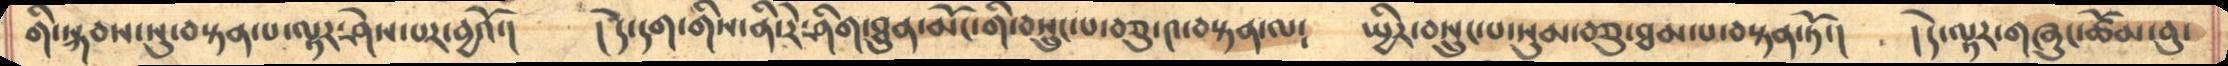གི་སྐབས་སུ་བསྟན་པ་ལྟར་ཤེས་པར་བྱའོ་།     །དེ་དག་གིས་ནི་རེ་ཤིག་ཐུན་མོང་གི་བསྲུང་པ་བཅུ་༤་བསྟན་ལ༴     སྤྱིར་བསྲུང་པ་སུམ་བཅུ་ཐམ་པ་བསྟན་ཏོ་།     །དེ་ལྟར་གཞུང་ཚོམ་བུ་
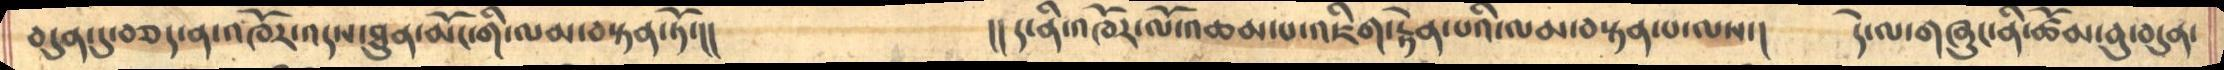བདུན་དུ་བཅད་ན་འཁོར་འདས་ཐུན་མོང་གི་ལམ་བསྟན་ཏོ་།།              །།ད་ནི་འཁོར་ལོ་འཆམ་པ་འཇིག་རྟེན་པའི་ལམ་བསྟན་པ་ལས་།   དེ་ལ་གཞུང་ནི་ཚོམ་བུ་བདུན་
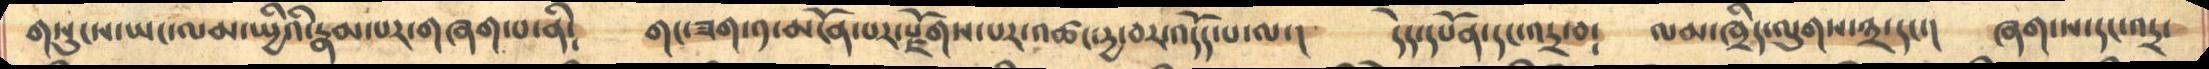གསུངས་ཡང་ལམ་སྤྱིའི་རྣམ་པར་གཞག་པ་ནི༴     གང་ཟག་༡་མངོན་པར་རྫོགས་པར་འཚང་དྱ་བར་འདོད་པ་ལ་།   དེད་དཔོན་དང་འདྲ་བ༴   ལམ་ཁྲིད་ལུགས་༣་དང་།   ཞག་ས་དང་འདྲ་
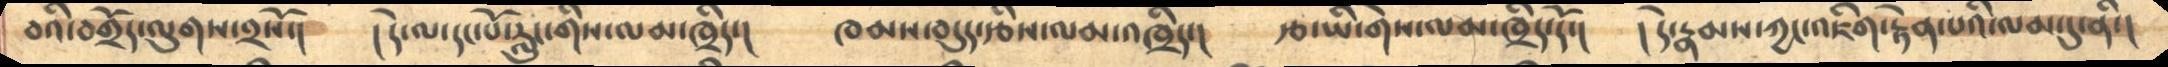བའི་བགྲོད་ལུགས་༢སོ་།    །དེ་ལ་དང་པོ་རླུང་གིས་ལམ་ཁྲིད་།     ཁམས་བདུད་རྩིས་ལམ་འཁྲིད་།     རྩ་ཡི་གེས་ལམ་ཁྲིད་དོ་།   །དེ་རྣམས་ཀྱང་འཇིག་རྟེན་པའི་ལམ་དུ་ནི་།
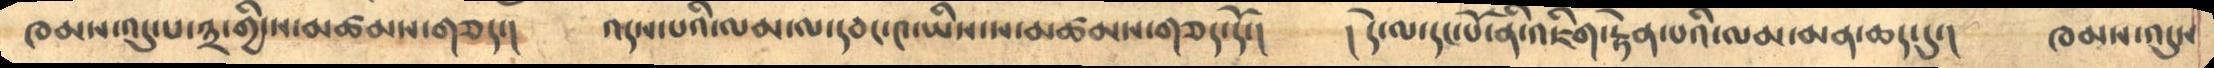ཁམས་འདུ་པ་༣་གྱི་ས་མཚམས་གཅད་།     འདས་པའི་ལམ་ལ་དབང་༤་ཡིས་ས་མཚམས་གཅད་དོ་།    །དེ་ལ་དང་པོ་ནི་འཇིག་རྟེན་པའི་ལམ་མན་ཆད་དུ་།   ཁམས་འདུས
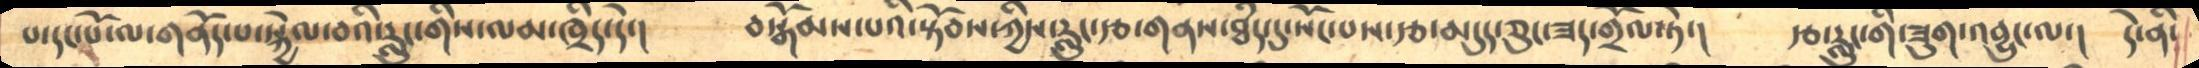པ་དང་པོ་ལ་གནོད་པ་སྐྱེལ་བའི་རླུང་གིས་ལམ་ཁྲིད་དེ་།    བསྒོམས་པའི་སྟོབས་ཀྱིས་རླུང་རྩ་གནས་ཐཾད་དུ་སོང་པས་རྩ་མདུད་ཅུང་ཟད་གྲོལ་ཏེ་།       རྩ་རླུང་གི་ཟུག་འབྱུང་ལ་།   དེ་ནི་
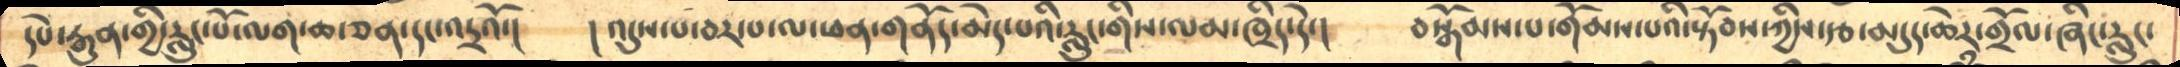དཔེ་རྒུན་གྱི་རླུང་པོ་ལག་ཆ་ཅན་དང་འདྲའོ་།    །འདུས་པ་བར་པ་ལ་ཕན་གནོད་མེད་པའི་རླུང་གིས་ལམ་ཁྲིད་དེ་།   བསྒོམས་པ་གོམས་པའི་སྟོབས་ཀྱིས་རྩ་མདུད་ཆེར་གྲོལ་ཞིང་རླུང་
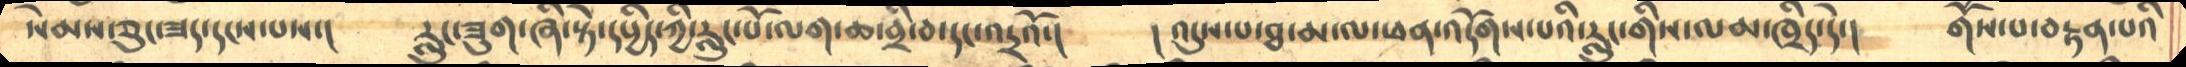སེམས་ཅུང་ཟད་དངས་པས་།     རླུང་ཟུག་ཞི་སྟེ་དཔྱིད་ཀྱི་རླུང་པོ་ལག་ཆ་བྲི་བ་དང་འདྲའོ་།    ། འདུས་པ་ཐ་མ་ལ་ཕན་འདོགས་པའི་རླུང་གིས་ལམ་ཁྲིད་དེ་།   གོས་པ་བརྟན་པའི
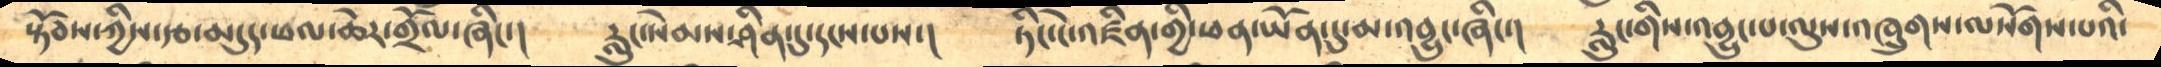སྟོབས་ཀྱིས་རྩ་མདུད་ཕལ་ཆེར་གྲོལ་ཞིང་།     རླུང་སེམས་ཤིན་དུ་དངས་པས་།    ཏིང་ངེ་འཛིན་གྱི་ཕན་ཡོན་དུ་མ་འབྱུང་ཞིང་།   རླུང་གིས་འབྱུང་པ་ལུས་འཁྲུགས་ལསོགས་པའི་
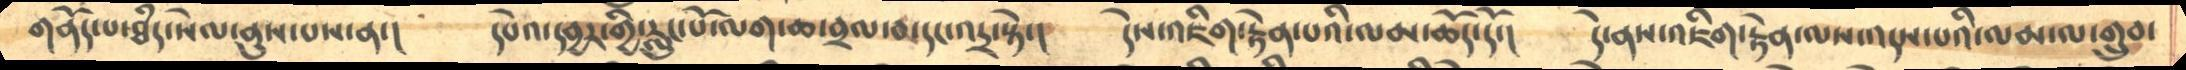གནོད་པ་ཐཾད་སེལ་ནུས་པས་ན་།    དཔེའ་དབྱར་གྱི་རླུང་པོ་ལག་ཆ་བྲལ་བ་དང་འདྲ་སྟེ་།     དེས་འཇིག་རྟེན་པའི་ལམ་ཆོད་དོ་།    དེ་ནས་འཇིག་རྟེན་ལས་འདས་པའི་ལམ་ལ་གྲུབ་
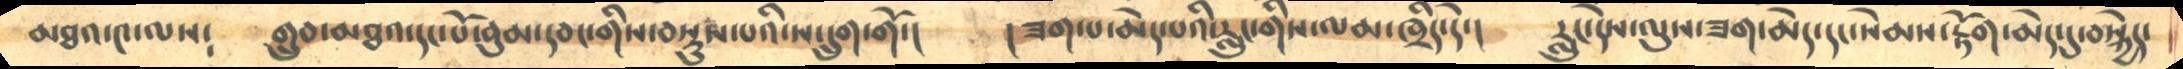མཐའ་༤་ལས༴    གྲུབ་མཐའ་དང་པོ་བུམ་དབང་གིས་བསྡུས་པའི་ས་དྲུག་གོ་།    །ཟག་པ་མེད་པའི་རླུང་གིས་ལམ་ཁྲིད་དེ་།     རླུང་དེས་ལུས་ཟག་མེད་དང་སེམས་རྟོག་མེད་དུ་བསྐྱེད་
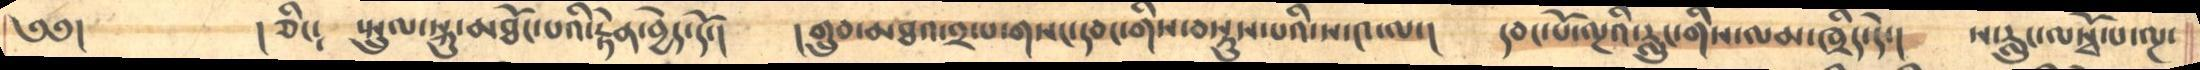༄༅།          །ཅིང༴    སྤྲུལ་སྐུ་མཐོང་པའི་རྟེན་བྱེད་དོ་།      །གྲུབ་མཐའ་༢་པ་གསང་དབང་གིས་བསྡུས་པའི་ས་༤་ལ་།     དབང་པོ་ལྔའི་རླུང་གིས་ལམ་ཁྲིད་དེ་།    ས་རླུང་ལསྭོ་པ་ལྔ་
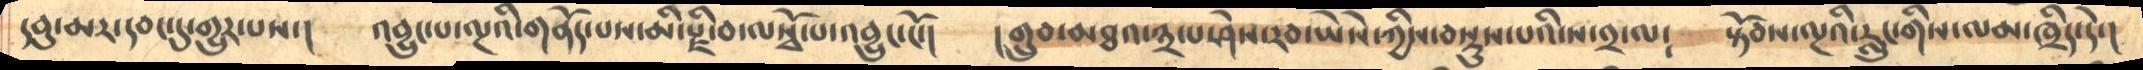དབུ་མར་དབང་དུ་གྱུར་པས་།     འབྱུང་པ་ལྔའི་གནོད་པས་མི་རྫི་བ་ལསྭོ་པ་འབྱུང་ངོ་།     །གྲུབ་མཐའ་༣་པ་ཤེས་རབ་ཡཻས་ཀྱིས་བསྡུས་པའི་ས་༢་ལ༴    སྟོབས་ལྔའི་རླུང་གིས་ལམ་ཁྲིད་དེ་།
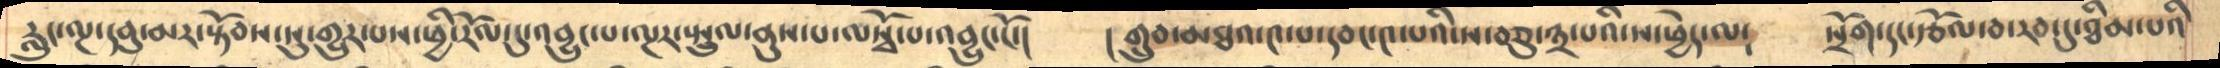རླུང་ལྔ་དབུ་མར་སྟོབས་སུ་གྱུར་པས་ཕྱི་རོལ་དུ་འབྱུང་པ་ལྔར་སྤྲུལ་ནུས་པ་ལསྭོ་པ་འབྱུང་ངོ་།     །གྲུབ་མཐའ་༤་པ་དབང་༤་པའི་ས་བཅུ་༣་པའི་ས་ཕྱེད་ལ༴   སྲོག་དང་རྩོལ་བ་རབ་དུ་ཐིམ་པའི
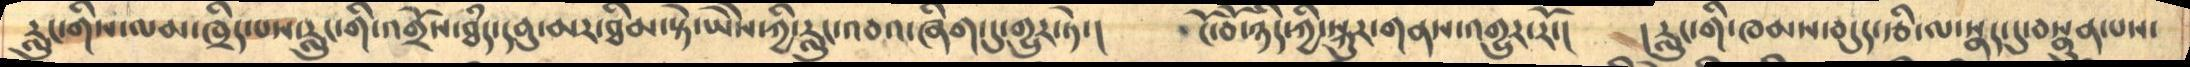རླུང་གིས་ལམ་ཁྲིད་པས་རླུང་གི་འགྲོས་ཐཾད་དབུ་མར་ཐིམ་སྟེ་ཡཻས་ཀྱི་རླུང་འབའ་ཞིག་དུ་གྱུར་ཏེ་།     ངོ་བོ་ཉིད་ཀྱི་སྐུར་གནས་འགྱུར་རོ་།    །རླུང་གི་ཁམས་བདུད་རྩི་ལ་སྣད་དུ་བསྣུན་པས་
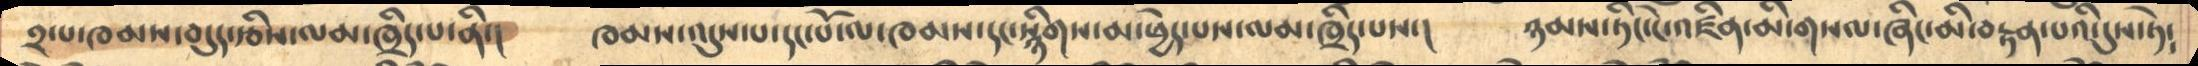༢་པ་ཁམས་བདུད་རྩིས་ལམ་ཁྲིད་པ་ནི་།    ཁམས་འདུས་པ་དང་པོ་ལ་ཁམས་དང་སྙིགས་མ་ཕྱེད་པས་ལམ་ཁྲིད་པས་།    ཉམས་ཏིང་ངེ་འཛིན་མི་གསལ་ཞིང་མི་བརྟན་པའི་དུས་ཏེ༴
